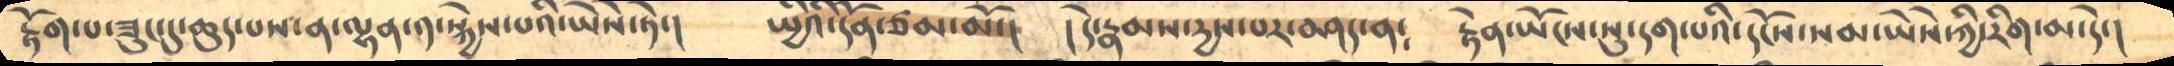རྟོག་པ་ཟུང་དུ་ཆུད་པས་ན་ལྷན་༡་སྐྱེས་པའི་ཡཻས་ཏེ་།       སྤྱིའི་དོན་ཙམ་མོ་།    །དེ་རྣམས་དྱས་པར་བཤད་ན༴   རྟེན་ཡོངས་སུ་དག་པའི་དངོས་སམ་ཡཻས་ཀྱི་རིག་མ་དེ་།
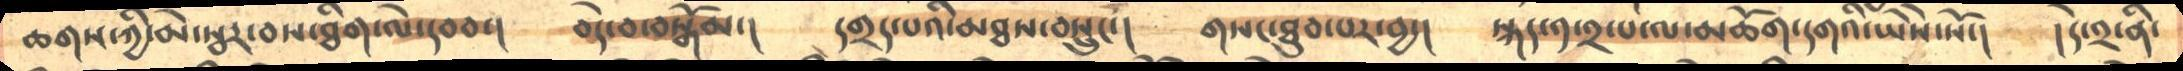ཆགས་ཀྱི་མེ་སྦར་བས་ཐིག་ལེ་དབབ་།    བདེ་བ་བསྒོམ་།     དགྲད་པའི་མཐས་བསྲུང་།   གསང་ཐུབ་པར་བྱ་།   སྐད་༡་༢་པ་ལ་མཆོག་དགའི་ཡཻས་སོ་།     །དེ་༢་ནི་
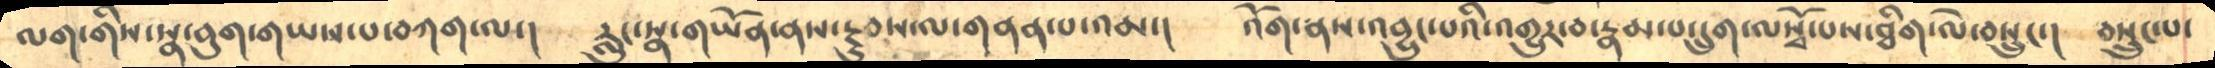ལག་གིས་སྣ་བུག་གཡས་པ་བཀག་ལ་།     རླུང་སྣ་གཡོན་ནས་རྔུབས་ལ་གནན་པ་འམ་།    འོག་ནས་འབྱུང་པའི་འགྱུར་བ་རྣམ་པ་དྲུག་ལསྭོ་པས་ཐིག་ལེ་བསྲུང་།   བསྲུང་པ་
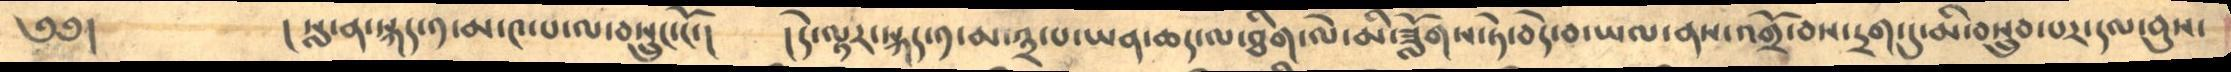༄༅།         །སླ་ན་སྐད་༡་མ་༤་པ་ལ་བསྲུང་ངོ་།    །དེ་ལྟར་སྐད་༡་མ་༣་པ་ཡན་ཆད་ལ་ཐིག་ལེ་མི་ཟློགས་ཏེ་བདེ་བ་ཡལ་ནས་འགྲོ་བས་དྲག་དུ་མི་བསྲུབ་པར་དལ་བུས་
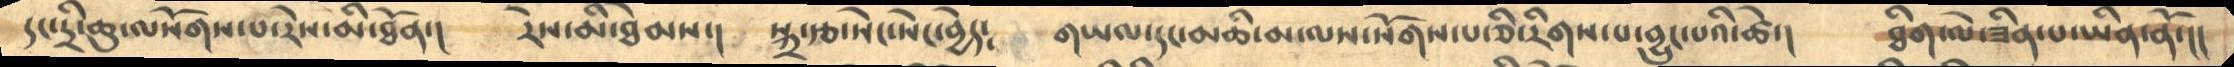དང་དྲི་ཆུ་ལསོགས་པ་རེས་མི་ཐོན་།     རེས་མི་ཐེམས་།    སྐྲ་རྩ་སེང་སེང་བྱེད༴     གཡལ་དང་མཆི་མ་ལས་སོགས་པ་ཅི་རིགས་པ་བྱུང་པའི་ཚེ་།    ཐིག་ལེ་ཟིན་པ་ཡིན་ནོ་།།
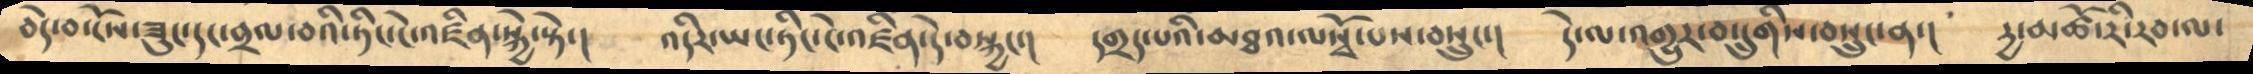བདེ་བ་ངོས་ཟུང་དང་བྲལ་བའི་ཏིང་ངེ་འཛིན་སྐྱེ་སྟེ་།    འདིར་ཡང་ཏིང་ངེ་འཛིན་དེ་བསྐྱང་།     དགྲད་པའི་མཐའ་ལསྭོ་པས་བསྲུང་།    དེ་ལ་འགྱུར་བ་དྲུགིས་བསྲུང་ན་།   དྱ་མཚོ་རི་རབ་ལ་
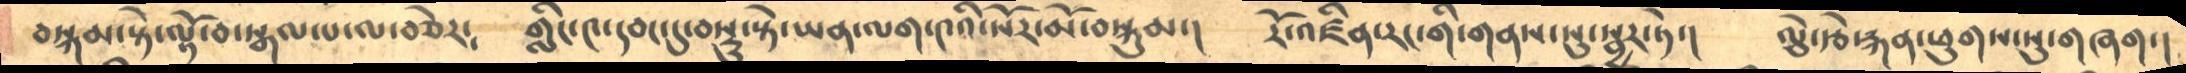བསྐམ་སྟེ་ལྟོ་བ་སྒལ་པ་ལ་བཅེར༴   གླིང་༤་དབང་དུ་བསྡུ་སྟེ་ཡན་ལག་༤འི་སོར་མོ་བསྐུམ་།     རོ་འཛིན་རང་གི་གནས་སུ་སྦྱར་ཏེ་།    ལྕེ་རྩེ་རྐན་ཕུགས་སུ་གཞག་།
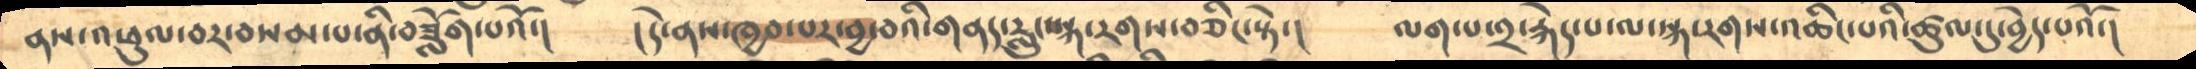ནས་འཕུལ་བར་བསམ་པ་ནི་བཟློག་པའོ་།     །དེ་ནས་ཁྱབ་པར་བྱ་བའི་གནད་རླུང་སྐ་རགས་བཅིང་སྟེ་།    ལག་པ་༢་རྐེད་པ་ལ་སྐ་རགས་འཆིང་པའི་ཚུལ་དུ་བྱེད་པའོ་།
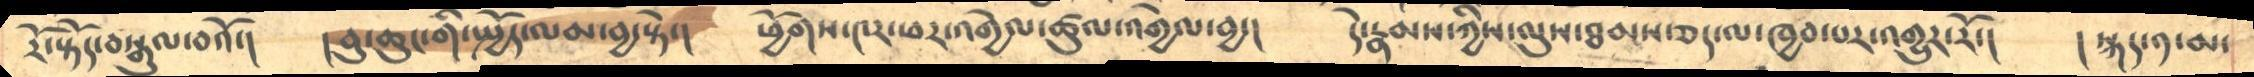རོ་སྟོད་བསྒུལ་བའོ་།     །བུ་ཆུང་གི་སྤྱོད་ལམ་བྱ་སྟེ་།     ཕྱོགས་༤ར་ཕར་འགྱེལ་ཚུལ་འགྱེལ་བྱ་།     དེ་རྣམས་ཀྱིས་ལུས་ཐམས་ཅད་ལ་ཁྱབ་པར་འགྱུར་རོ་།་   ། སྐད་༡་མ་
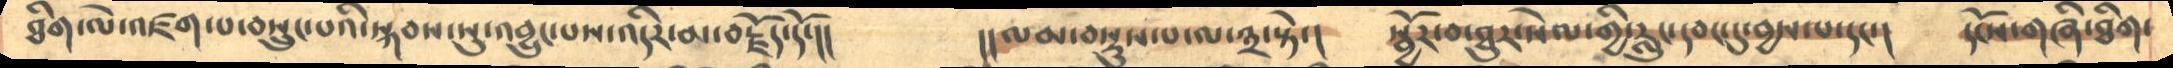ཐིག་ལེ་འཛག་པ་བསྲུང་པའི་སྐབས་སུ་འབྱུང་པས་འདིར་མ་བརྗོད་དོ་།།     །།ལམ་བསྡུས་པ་ལ་༣་སྟེ་།    སྦྱོར་བ་ཐུར་སེལ་གྱི་རླུང་དབང་དུ་བྱས་པ་དང་།    དངོས་གཞི་ཐིག་
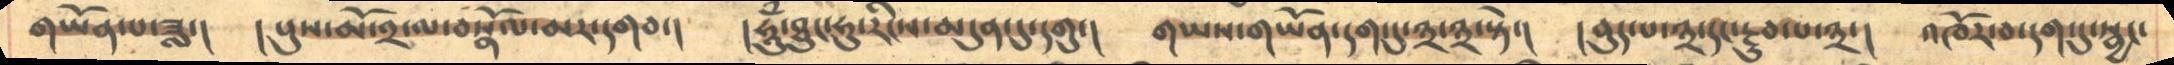གཡོན་པ་ཟླ་།     ། པུས་མོ་༢་ལ་བསྣོལ་མར་དགབ་།    །ཧཱུཾ་ཐུང་ཧུ་རིངས་མདུན་དུ་དགུ་།    གཡས་གཡོན་དག་དུ་༣་༣་སྟེ་།  །བུད་པ་༣་དང་རྔུབ་པ་༣་།  འཁོར་བ་དག་དུ་སྦྱང་
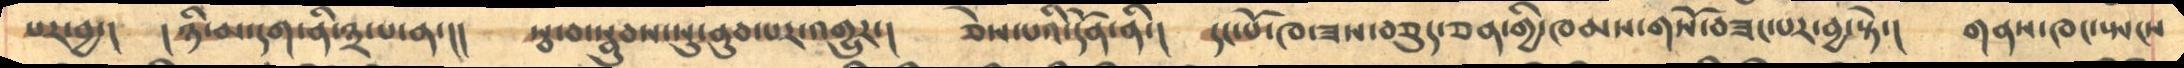པར་བྱ་།    །ཉི་མ་དག་ནི་༣་པ་ན་།།    སྦ་བ་སྦུབས་སུ་ནུབ་པར་འགྱུར་།     ཅེས་པའི་དོན་ནི་།    དང་པོ་ཁ་ཟས་བཅུད་ཅན་གྱི་ཁམས་གསོ་བཟང་པར་བྱ་སྟེ་།     གནས་ཁང་སྤངས
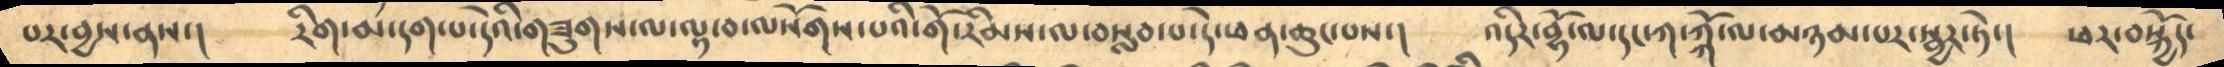པར་བྱས་ནས་།     རིག་མ་དག་པ་དེའི་གཟུགས་ལ་ལྟ་བ་ལསོགས་པའི་གོ་རིམས་ལ་བསླབ་པ་དེ་ཕན་ཆུང་པས་།     འདིར་བྷོ་ལ་རང་ཀ་ཀྐོ་ལ་མཉམ་པར་སྦྱར་ཏེ་།    ཕར་བསྐྱོད་
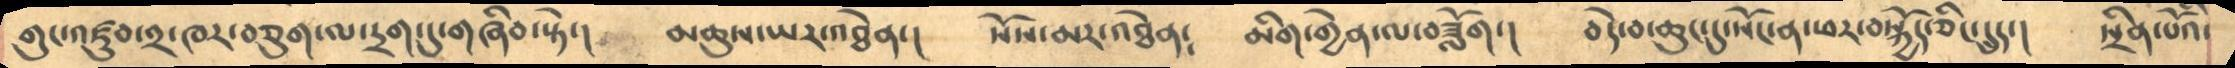གུང་འཛུབ་༢་ཁར་བཅུག་ལ་དྲག་དུ་གཞིབ་སྟེ་།      མཆུས་ཡར་འཐེན་།     སོས་མར་འཐེན༴    མིག་གྱེན་ལ་བཟློག་།    བདེ་བ་ཆུང་ངུ་སོང་ན་ཕར་བསྐྱོད་ཅིང་དྲུད་།    སྲིན་པོའི་
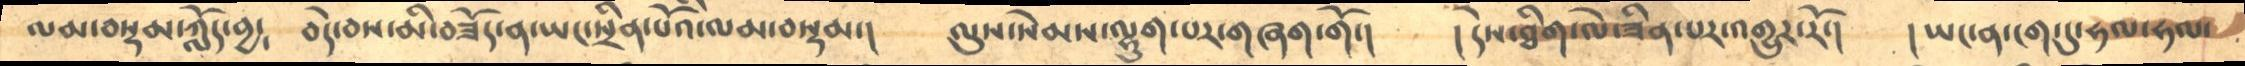ལམ་བསྡམ་ཀློད་བྱ༴    བདེ་བས་མི་བཟོད་ན་ཡང་སྲིན་པོའི་ལམ་བསྡམ་།     ལུས་སེམས་ལྷུག་པར་གཞག་གོ་།     །དེས་ཐིག་ལེ་ཟིན་པར་འགྱུར་རོ་།    །ཡང་ན་ངག་དུ་ཧལ་ཧལ་
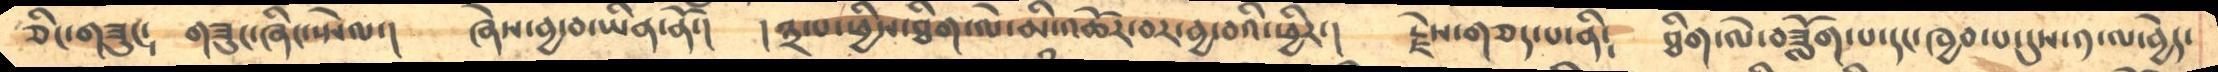ཅིང་གཟུང༴    གཟུང་ཞིང་སེལ་།    ཞེས་བྱ་བ་ཡིན་ནོ་།    །༣་པ་ཕྱིས་ཐིག་ལེ་མི་འཆོར་བར་བྱ་བའི་ཕྱིར་།   རྗེས་གཅད་པ་ནི༴    ཐིག་ལེ་བཟློག་པ་དང་ཁྱབ་པ་དུས་༡་ལ་བྱེད་
